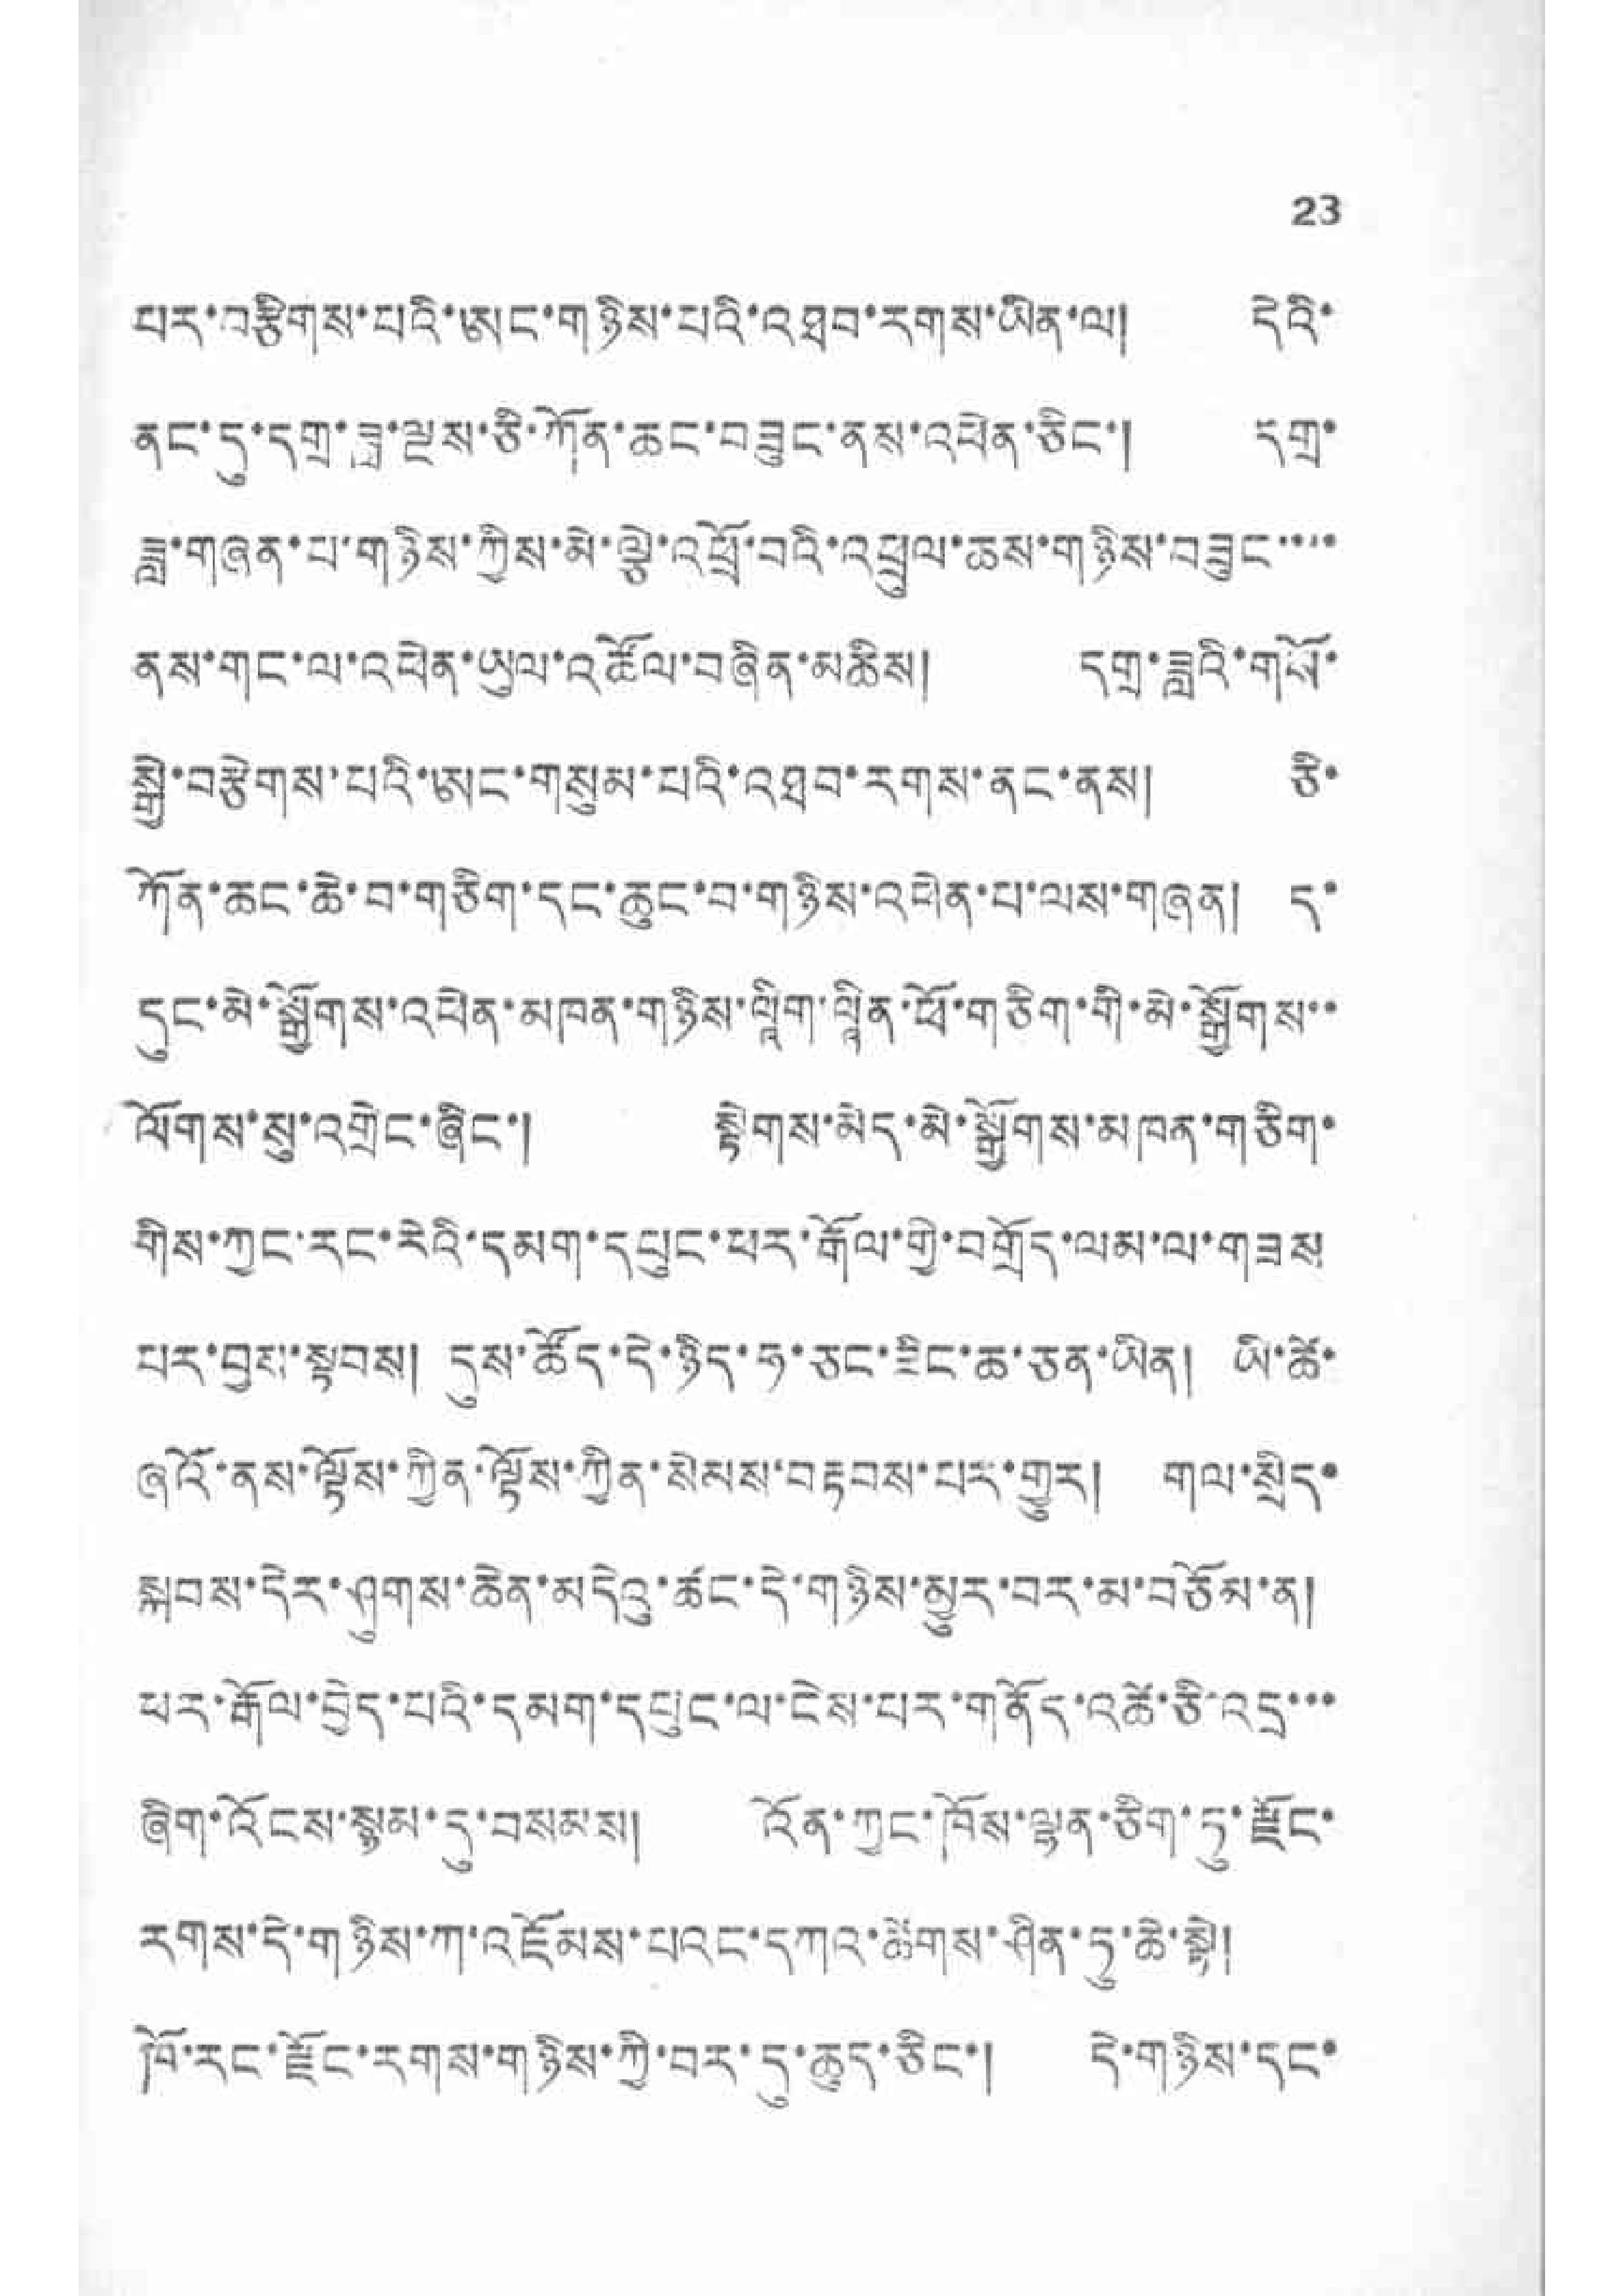23
པར་བརྩིགས་པའི་ཨང་གཉིས་པའི་འཐབ་དགས་ཡིན་ལ། དེའི་
ནང་དུ་དགྲ་ཟླ་ལྔས་ཅི་ཀོན་ཆང་བཟུང་ནས་འཕེན་ཅིང་། དགྲ་
ཟླ་གཞན་པ་གཉིས་ཀྱིས་མེ་ལྕེ་འཕྲོ་བའི་འཕྲུལ་ཆས་གཉིས་བཟུང་་་་
ནས་གང་ལ་འཕེན་ཡུལ་འཚོལ་བཞིན་མཆིས། དགྲུ་ཟླའི་གསོ་
སྒྱེ་བརྩེགས་པའི་ཨང་གསུམ་པའི་འཐབ་རགས་ནང་ནས། ཅི་
ཀོན་ཆང་ཆེ་བ་གཅིག་དང་ཆུང་བ་གཉིས་འཕེན་པ་ལས་གཞན། ད་
དང་མེ་སྒྱོགས་འཕེན་མཁན་གཉིས་ལཱིག་ལཱིན་ཕོ་གཅིག་གི་མེ་སྒྱོགས་་
ལོོགས་སུ་འགྲེང་ཞིང་། སྟེགས་མེད་མེ་སྒྱོགས་མཁན་གཅིག་
གིས་ཀྱང་རང་རེའི་དམག་དཔུང་ཕར་རྒོལ་གྱི་བགྲོད་ལམ་ལ་གཟས
པར་བྱས་སྟབས། དུས་ཚོད་དེ་ཉིད་ཧ་ཅང་ཇིང་ཆ་ཅན་ཡིན། ཡི་ཚེ་
ཞའོ་ནས་ལྟོས་ཀྱིན་ལྟོས་ཀྱིན་སེམས་བརྟབས་པར་གྱུར། གལ་སྲིད་
སྐབས་དེར་ཤུགས་ཆེན་མདེའུ་ཚང་དེ་གཉིས་མྱུར་བར་མ་བཅོམ་ན།
ཕར་རྒོལ་བྱེད་པའི་དམག་དཔུང་ལ་ངེས་པར་གནོད་འཚེ་ཅི་འདྲ་་་་
ཞིག་འོངས་སྙམ་དུ་བསམས། འོན་ཀྱང་ཁོས་ལྷན་ཅིག་ཏུ་རྫོང་
རགས་དེ་གཉིས་ཀ་འཇོམས་པའང་དཀའ་ཚེགས་ཤིན་ཏུ་ཆེ་སྟེ།
ཁོ་རང་རྫོང་རགས་གཉིས་ཀྱི་བར་དུ་ཆུད་ཅིང་། དེ་གཉིས་དང་
